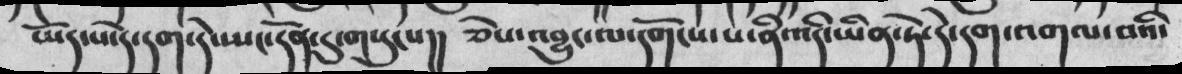ཡོད་པ་དེ་དག་དེ་ཡང་དོན་དུ་གསུངས།།  ཅེས་འབྱུང་ལ་དགོངས་པ་ནི་འདི་ཡིན་ཏེ་དེ་དག་དགལ་བའི་
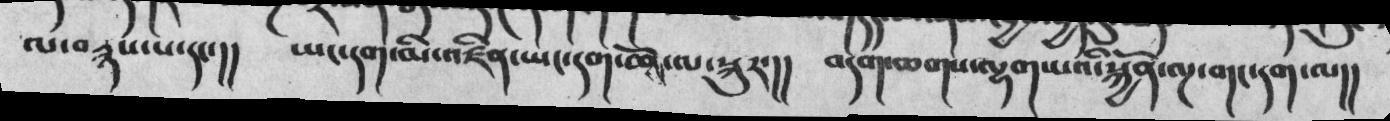ལ་བརྙས་པ་དང་།།  ཡང་དག་མི་འཛིན་ཡང་དག་ཆོས་ལ་སྐུར་།།  བདག་ཆགས་ལྷག་པའི་སྐྱོན་ལྔ་བདང་དག་ལ།།
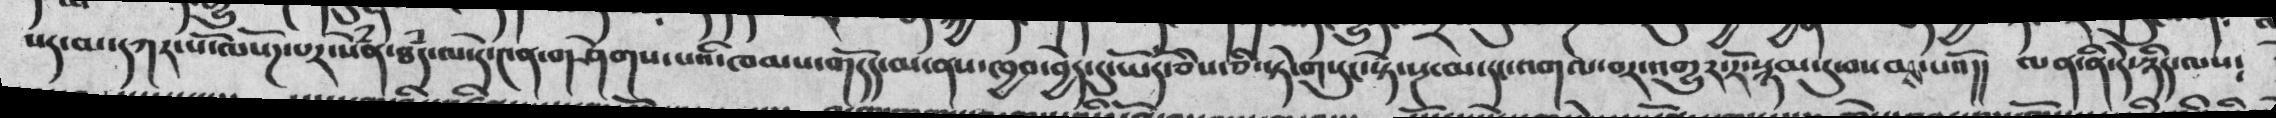པད་མ་དཀར་པོ་ལསོཌ་པར་སེཾན་ཐཾད་ལ་དེ་༤ན་གཤེགས་པའི་ཁམས་གདོད་མ་ནས་ཁྱབ་བྱེད་དུ་ཡོད་ཅིས་ཅི་སྟེ་གསུང་སྟེ་སྔ་མ་དང་འགལ་བར་འགྱུར་རོ་སྙམ་དུ་བསམས་པའོ།། ལན་ནི་དེ་ཉིད་ལས༴
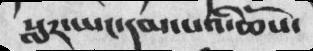སླར་ཡང་དམ་པའི་ཆོས་
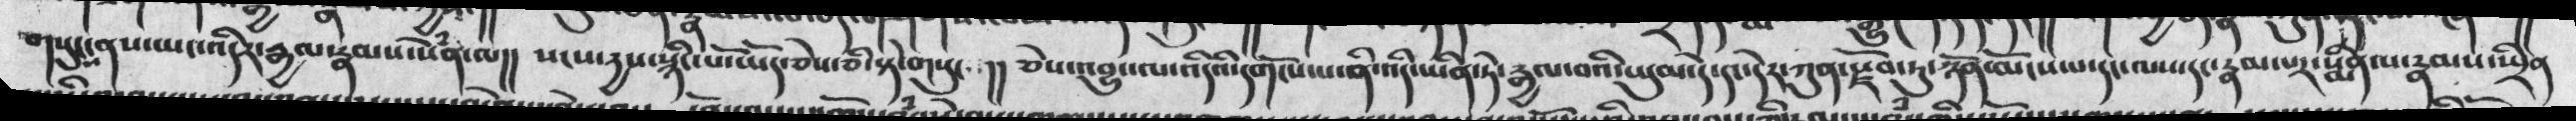གསུང་ནས་ཡང་འདིར་རྒྱལ་རྣམས་སེཾན་ལ།།  སངས་དྱས་སྙིང་པོ་ཡོད་ཅེས་ཅི་སྟེ་གསུང།།  ཅེས་འབྱུང་ལ་འདིའི་དགོས་པ་ནི་འདི་ཡིན་ཏེ་རྒྱལ་བའི་ཡུམ་དེ་དང་དེར་ཀུན་རྫོབ་ཏུ་ཉོན་མོངས་པ་དང་རྣམ་པར་སྨིན་པ་རྣམས་སྤྲིན
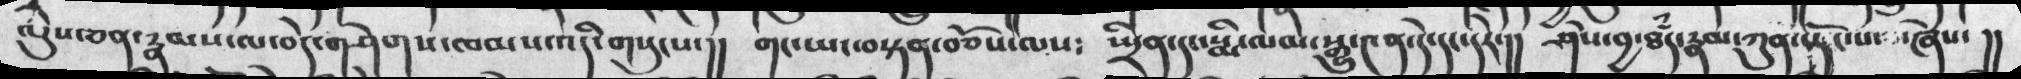ལུས་ཅན་རྣམས་ལ་བདེ་གཤེགས་ཁམས་འདི་གསུངས་།།  གང་ཡང་བསྟན་བཅོས་ལས༴  སྤྲིན་དང་སྨི་ལམ་སྒྱུ་༤ན་དེ་དང་དེར་།།  ཤེས་བྱ་ཐཾད་རྣམ་ཀུན་དང་པོ་ཞེས་།།
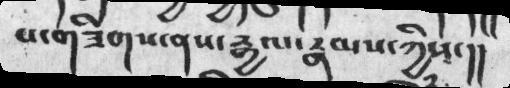པ་གཟིགས་ནས་རྒྱལ་རྣམས་ཀྱིས་།།
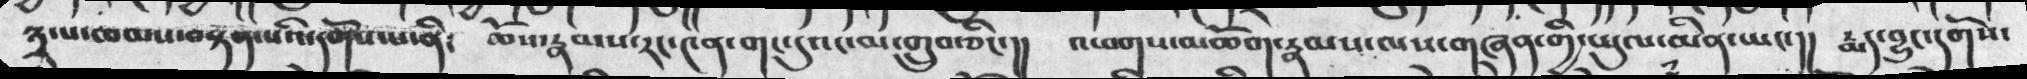སྦྲ་པ་ཆམས་བསྟན་པའི་དགོས་པ་ནི༴  ཆོས་རྣམས་རང་༤ན་གང་དུའང་མ་གྲུབ་ཅིང་།།  འཕགས་མཆོག་རྣམས་ལས་གཞན་གྱི་ཡུལ་མིན་ཡང་།།  རྨད་བྱུང་དགོས་
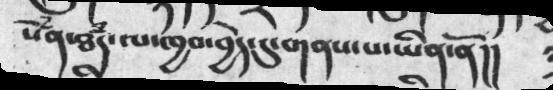སེཾན་ཐཾད་ལ་ཁྱབ་བྱེད་དུ་གནས་པ་ཡིན་ནོ།།
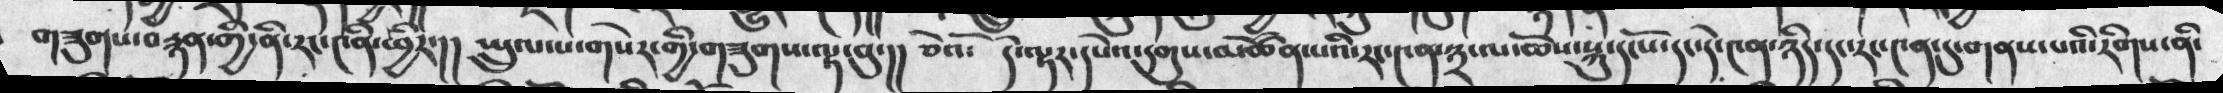གཟུགས་བརྙན་གྱི་ནི་རང་༩ིན་ཕྱིར་།།  སྤྲུལ་པ་གསེར་གྱི་གཟུགས་ལྟ་བུ་།།  ཅེསོ༴  དེ་ལྟར་དཔེའ་དགུས་མཚོན་པའི་རང་༤ན་༣་ལ་ཆོས་སྐུ་དངོས་་དང་་དེ་༤ན་ཉིད་དང་རང་༤ན་དུ་གནས་པའི་རིགས་ནི་
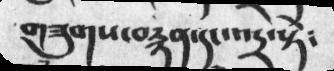གཟུགས་བརྙན་དང་འདྲ་སྟེ༴
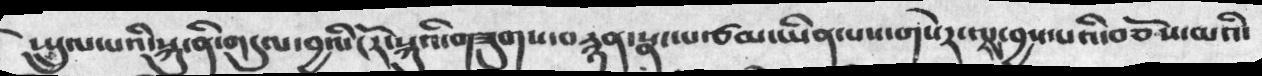སྤྲུལ་པའི་སྐུ་ནི་གདུལ་བྱའི་ངོར་སྐུའི་གཟུགས་བརྙན་སྣང་པ་ཙམ་ཡིན་པས་གསེར་ལས་བྱས་པའི་བཅོས་མའི་
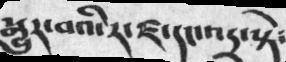སྒྱུར་བའི་ར་ཛ་དང་འདྲ་སྟེ༴
